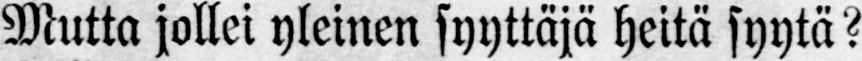Mutta jollei yleinen syyttäjä heitä syytä?
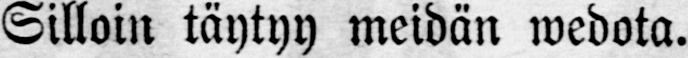Silloin täytyy meidän wedota.
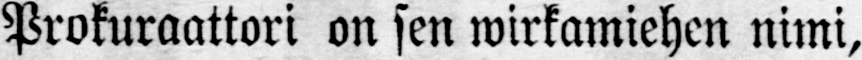Prokuraattori on sen wirkamiehen nimi,
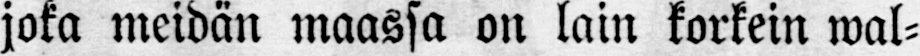joka meidän maassa on lain korkein wal-
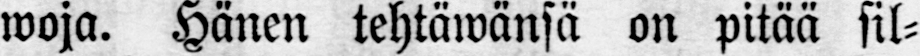woja. Hänen tehtäwänsä on pitää sil-
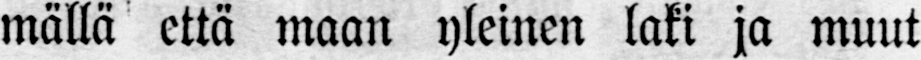mällä että maan yleinen laki ja muut
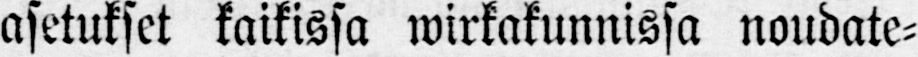asetukset kaikissa wirkakunnissa noudate-
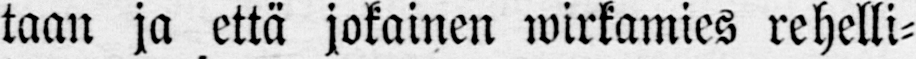taan ja että jokainen wirkamies rehelli-
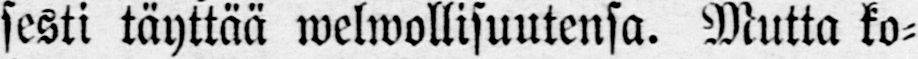sesti täyttää welwollisuutensa. Mutta ko-
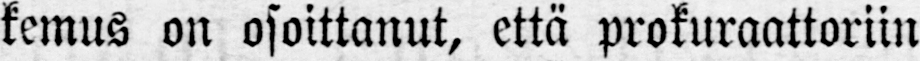kemus on osoittanut, että prokuraattoriin
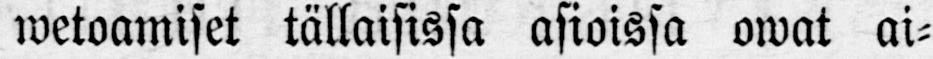wetoamiset tällaisissa asioissa owat ai-
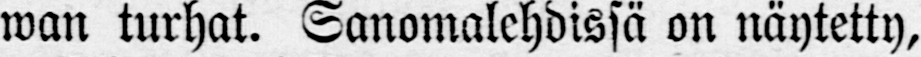wan turhat. Sanomalehdissä on näytetty,
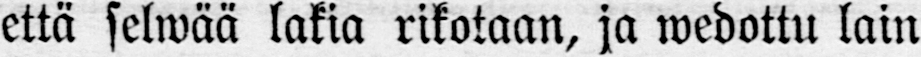että selwää lakia rikotaan, ja wedottu lain
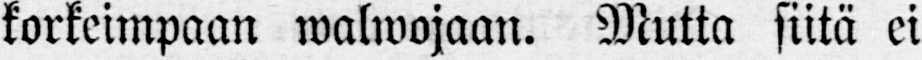korkeimpaan walwojaan. Mutta siitä ei
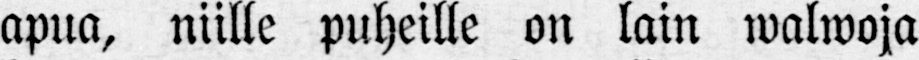apua, niille puheille on lain walwoja
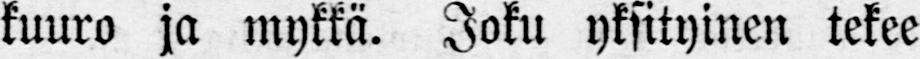kuuro ja mykkä. Joku yksityinen tekee
